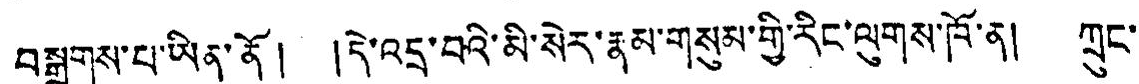བསྒྲགས་པ་ཡིན་ནོ། །དེ་འདྲ་བའི་མི་སེར་རྣམ་གསུམ་གྱི་རིང་ལུགས་ཁོ་ན། ཀྲུང་
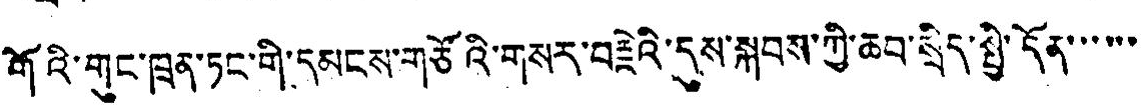གོའི་གུང་ཁྲན་ཏང་གི་དམངས་གཙོའི་གསར་བརྗེའི་དུས་སྐབས་ཀྱི་ཆབ་སྲིད་སྤྱི་དོན་་་་་་
